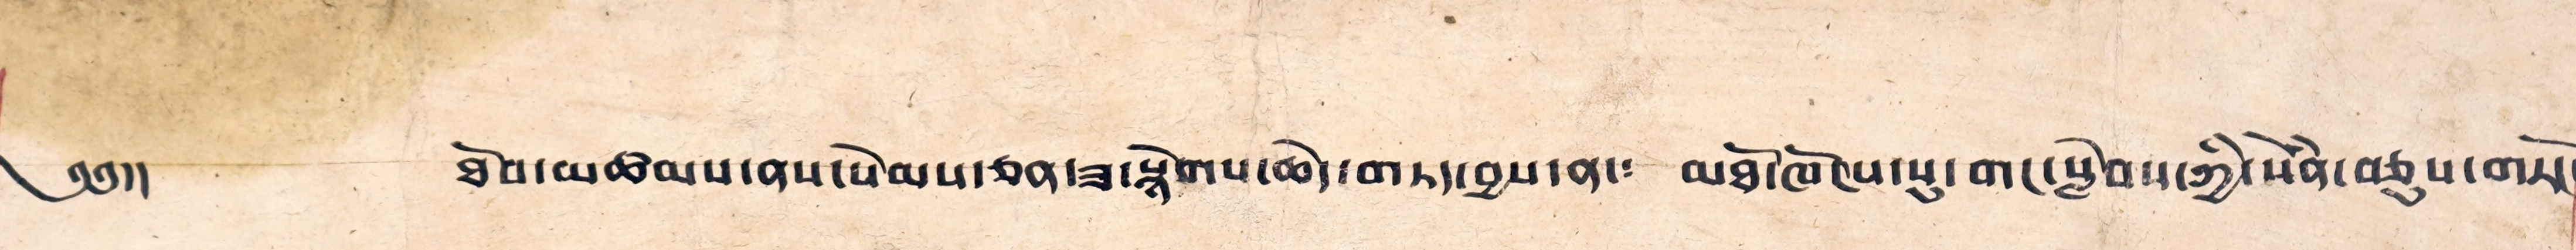༄༅།། ཐོབ་མཚམས་ནས་སེམས་ཅན་ཟ་སྐོགས་ཆེད་གཏང་བྱས་ན་༴ མཐོ་ཁོངས་སུ་གང་སླེབས་ཀྱི་སེཾན་བཅུས་གཏོང་
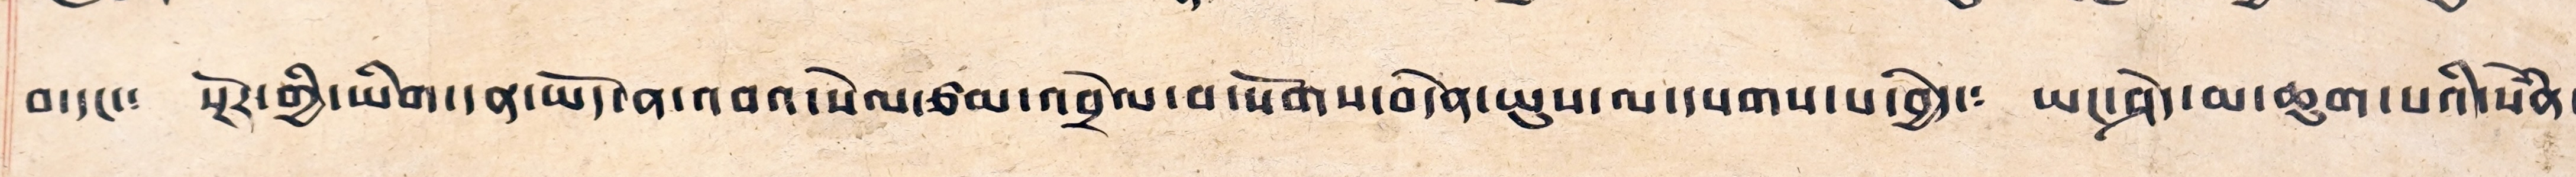བ་དང་༴ སྔོར་གྱི་ཡིག་དན་ཡོད་ན་འབའ་སེལ་ཙམ་འབྲེལ་བ་སོགས་བདེན་ཡུས་ལ་དཔགས་པ་བྱེད་༴ ཡང་ཤེད་མ་ཆུག་པའི་སེཾན་
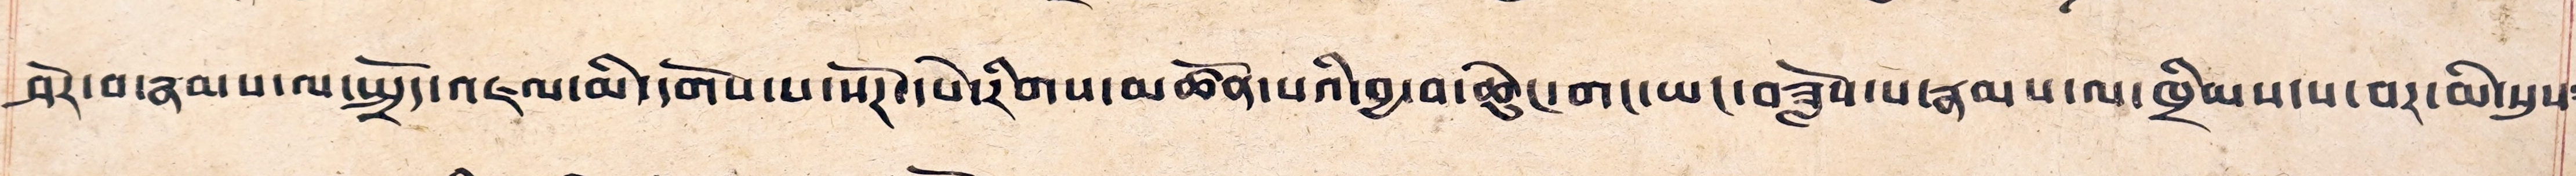ཤེར་བ་རྣམས་ལ་སྤྲོད་འཇལ་མི་དགོས་པ་སོཊ་དཔེ་རིགས་མཚོན་པའི་བྱ་བ་ཆེུང་གང་ཡང་བཟློས་པ་རྣམས་ལ་ཁྲིམས་ས་བར་མི་སུས༴
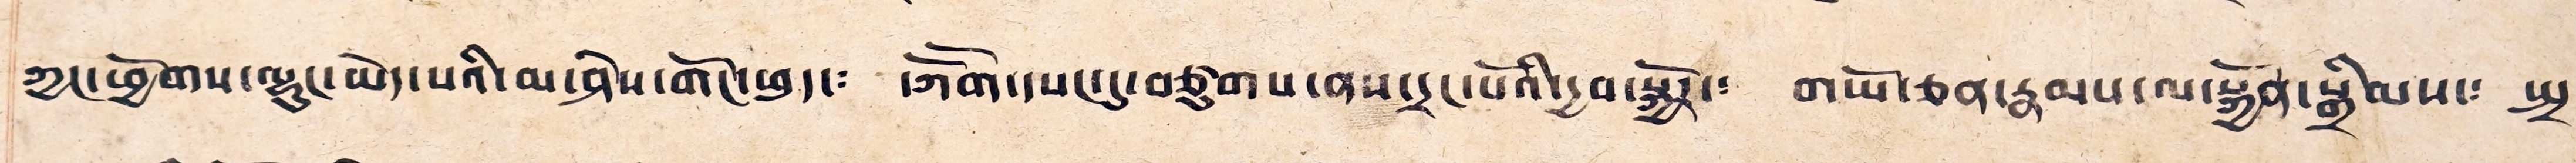ཀྱང་ཕྱོགས་ལྷུང་ཡོད་པའི་མ་ཤེས་གོང་ཕུད་༴ དཀོན་མཆོག་དཔང་དུ་བཙུགས་ནས་དྲང་པོའི་དྱབ་སྐྱོར་༴ གཡོ་ཅན་རྣམས་ལ་སྐྱོན་སྒྲིམས་༴ སྤྲ་
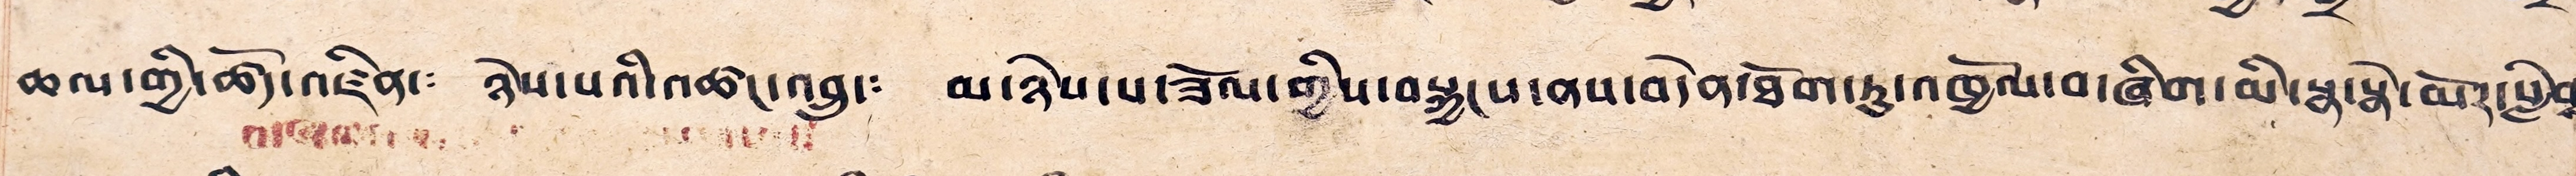ཆལ་གྱི་ཚོད་འཛིན་༴ ཉེས་པའི་འཚང་འབྲུ་༴ མ་ཉེས་པ་ཟོལ་གྱིས་བསྐྱངས་ནས་བདེན་ཐོག་ཏུ་འཁྱོལ་བ་ཞིག་མི་སྣ་སྣེ་མོར་སླེབྶ་
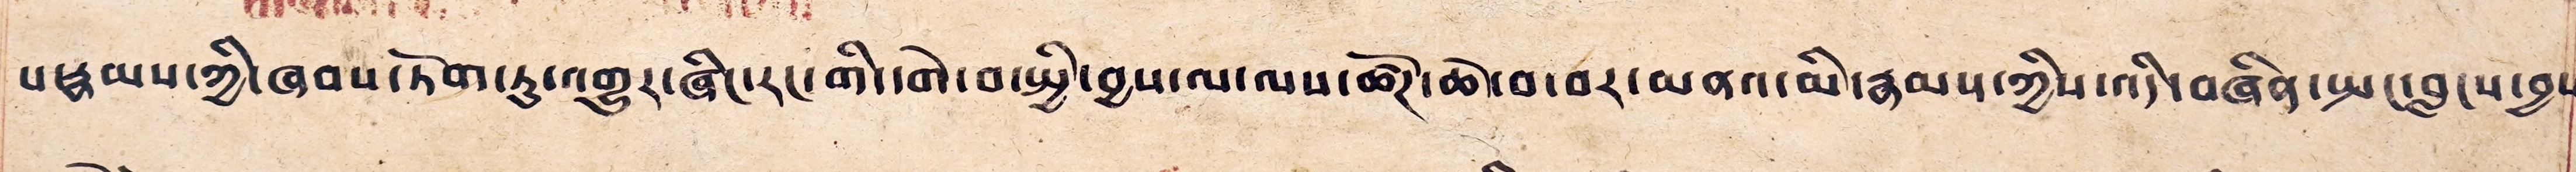པ་རྣམས་ཀྱི་ཞབས་ཏོག་ཏུ་འགྱུར་ཞིང་རང་གི་དགེ་བ་སྤྱི་བྱས་ལ་ལས་ཚོཊ་ཆེ་བ་བར་མནའ་མི་རྣམས་ཀྱིས་འདི་བཞིན་སྤང་བླངས་བྱས༴
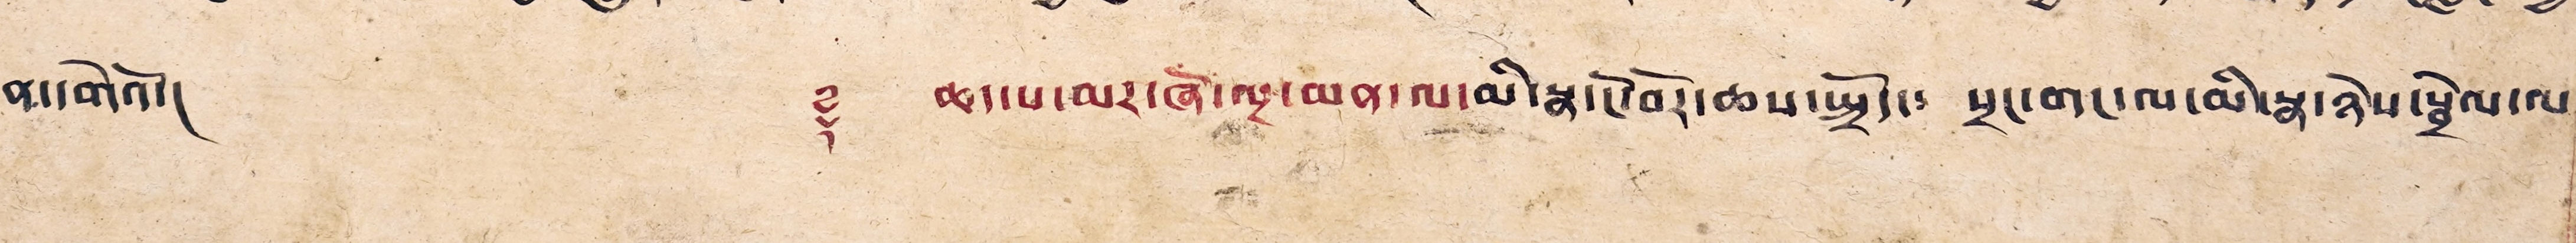ན་དགེའོ།། ༈ ཆད་པ་མར་ཞོ་ལྔ་མན་ལ་མི་སྣ་ངོ་བོར་ཆས་སྤྲོད་༴ སྲང་གང་ལ་མི་སྣ་ཉེས་སྦྲེལ་ལ་
